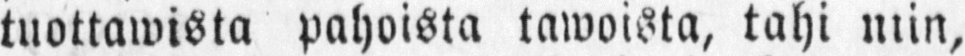tuottawista pahoista tawoista, tahi niin,
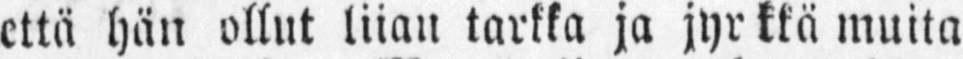että hän ollut liian tarkka ja jyrkkä muita
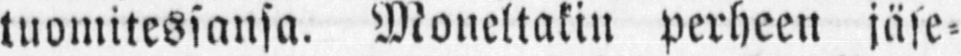tuomitessansa. Moneltakin perheen jäse-
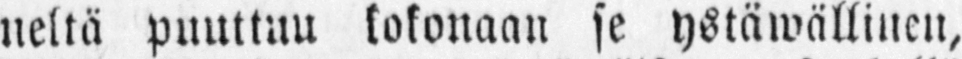neltä puuttuu kokonaan se ystäwällinen,
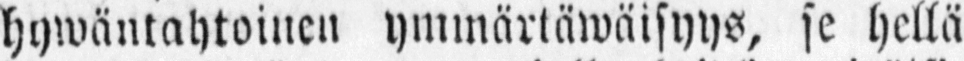hywäntahtoinen ymmärtäwäisyys, se hellä
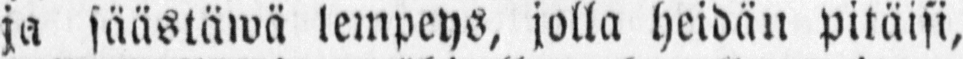ja säästäwä lempeys, jolla heidän pitäisi,
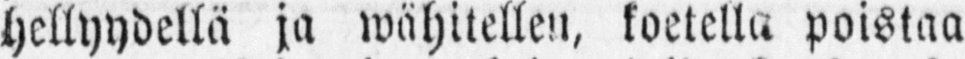hellyydellä ja wähitellen, koetella poistaa
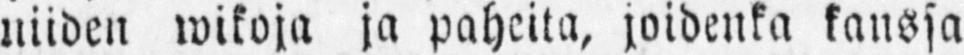niiden wikoja ja paheita, joidenka kanssa
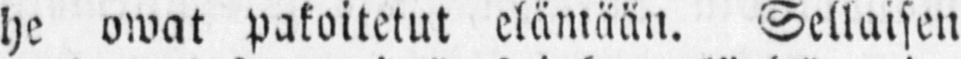he owat pakoitetut elämään. Sellaisen
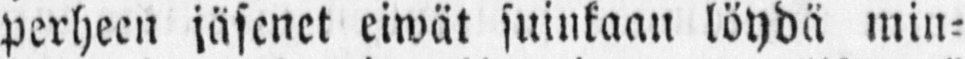perheen jäsenet eiwät suinkaan löydä min-
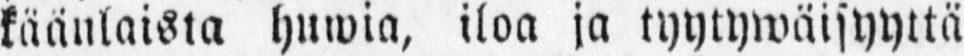käänlaista huwia, iloa ja tyytywaisyyttä
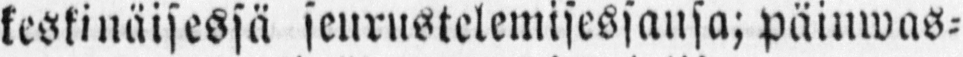keskinäisessä seurustelemisessansa; päinwas-
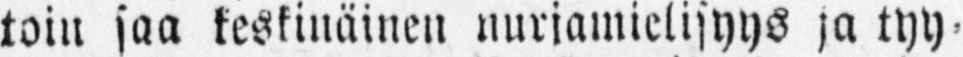toin saa keskinäinen nurjamielisyys ja tyy-
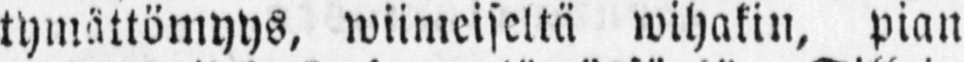tymättömyys, wiimeiseltä wihakin, pian
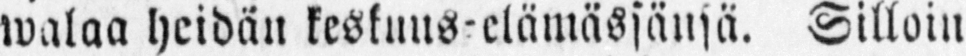walaa heidän keskuus-elämässänsä. Silloin
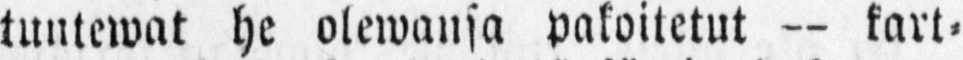tuntewat he olewansa pakoitetut — kart-
